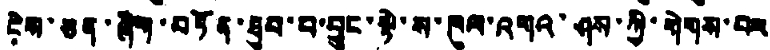ངེས་ཅན་ཞིག་བཏོན་ཐུབ་པ་བྱུང་སྟེ་ས་ཁུལ་འགའ་ཤས་ཀྱི་གེགས་བར་
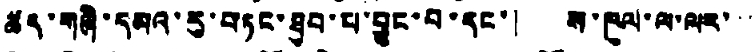ཚད་གཞི་དམའ་རུ་བཏང་ཐུབ་པ་བྱུང་བ་དང་། ས་ཁུལ་ལ་ལར་་་་
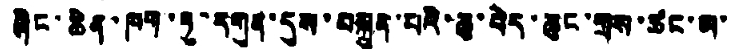ཞིང་ཆེན་ཁག་ཏུ་དགུན་དུས་བསྐྲུན་པའི་ཆུ་བེད་ཆུང་གྲས་ཚང་མ་
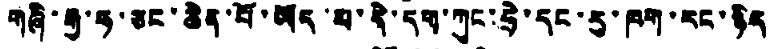གཞི་རྒྱ་ཧ་ཅང་ཆེན་པོ་ཡོད་པ་དེ་དག་ཀུང་ཧྲེ་དང་རུ་ཁག་རང་ཉིད
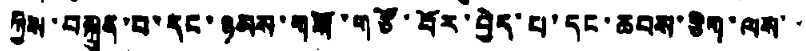ཀྱིས་བསྐྲུན་བ་དང་ཉམས་གསོ་གཙོ་བོར་བྱེད་པ་དང་ཆབས་ཅིག་ལས་་
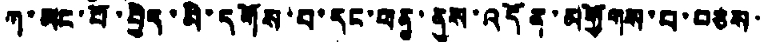ཀ་མང་པོ་བྱེད་མི་དགོས་པ་དང་ཕན་ནུས་འདོན་མགྱོགས་པ་བཅས་
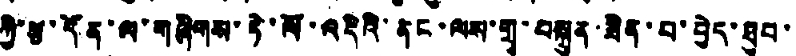ཀྱི་རྩ་དོན་ལ་གཞིགས་ཏེ་ལོ་འདིའི་ནང་ལས་གྲྭ་བསྐྲུན་ཟིན་པ་བྱེད་ཐུབ་
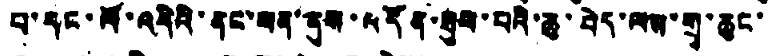པ་དང་ལོ་འདིའི་ནང་ཕན་ནུས་འདོན་ཐུབ་པའི་ཆུ་བེད་ལས་གྲྭ་ཆུང་
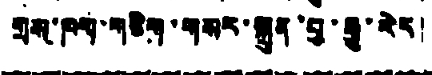གྲས་ཁག་གཅིག་གསར་སྐྲུན་བྱ་རྒྱུ་རེད།
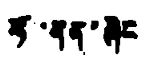ཧོ་ནན་ཞིང
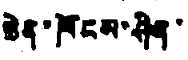ཆེན་ཁོངས་ཤིན་་
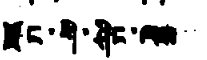རྫོང་གི་ཤིང་ལས་
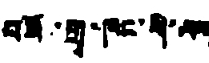བཟོ་གྲྭ་ཁང་གི་ལག
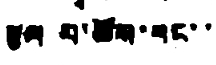རྩལ་པ་ཚོས་རང་་
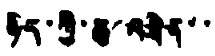ཉིད་ཀྱི་ཆུ་འཐེན་་
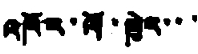འཁོར་ལོ་ཁྱེར་་་་
